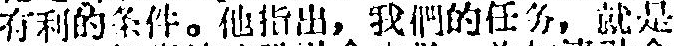有利的条件。他指出，我們的任务，就是
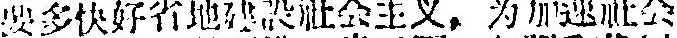要多快好省地建設社会主义，为加速社会
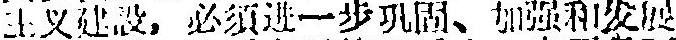主义建沒，必須进一步巩固、加強和发展
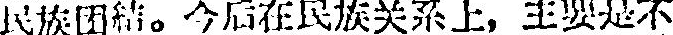民族团結。今后在民族关系上，主要是不
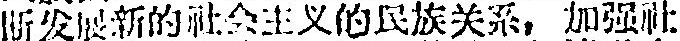断发展新的社会主义的民族关系，加強社
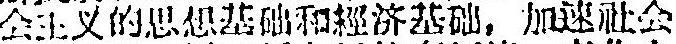会主义的思想建础和經济运础，加速社会
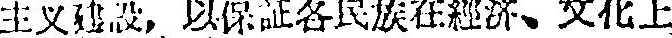主义建設，以保社各民族在經济、文化上
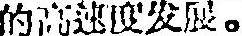的高速度发展。
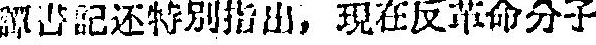譚書記还特別指出，現在反革命分子
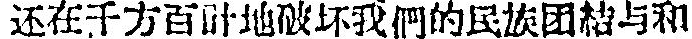还在千方百計地破坏我們的民族团結与和
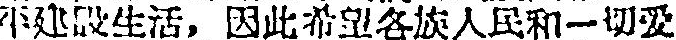平建設生活，因此希望各族人民和一切爱
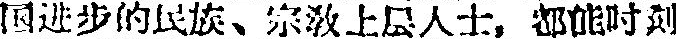国进步的民族、宗敎上层人士，都能时刻
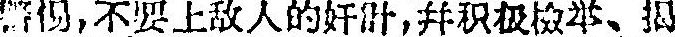警惕，不要上敌人的奸計，并积极檢举、揭
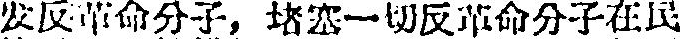发反革命分子，堵塞一切反革命分子在民
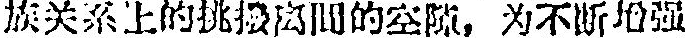族关系上的挑撥离間的空隙，为不断增強
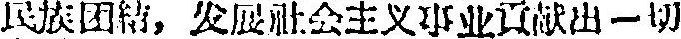民族团結，发展社会主义事业貢献出一切
